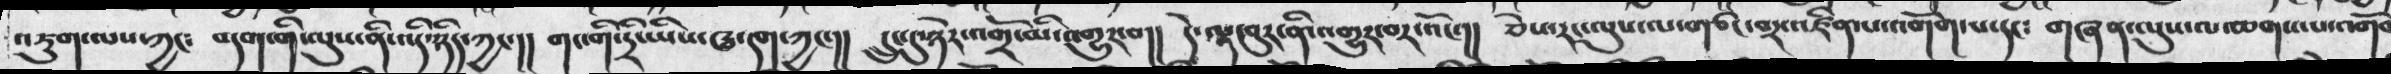འཇུག་ལས་ཀྱང༴  བདག་གི་ལུས་ནི་འདི་ཉིད་ཀྱང་།། གང་གི་དྲི་ཡིས་ཝ་དག་ཀྱང་།།  དྲུང་དུ་ཉེར་འགྲོ་མི་འགྱུར་བ།།  དེ་ལྟ་བུར་ནི་འགྱུར་བར་འོང་།།  ཅེས་རང་ལུས་ལ་གཙང་བར་འཛིན་པ་འགོག་པ་དང༴  གཞན་ལུས་ལ་ཆགས་པ་འགོ
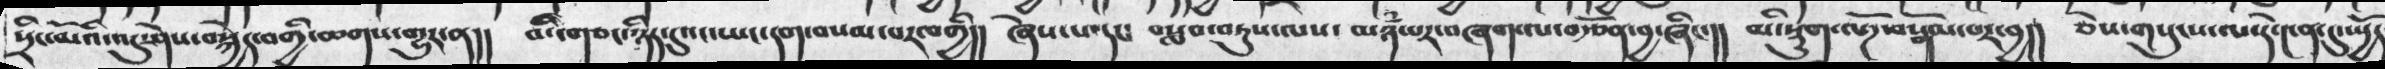སྲིང་མོའི་འདུ་ཤེས་བསྐྱེད་བགྱི་ཆགས་གྱུར་ན།།  མི་གཙང་ཉིད་དུའང་ཡང་དག་བསམ་པར་བགྱི།།  ཞེས་པ་དང༴  བསླབ་བཏུས་ལས་  མཉཾ་པར་བཞག་པ་བརྩོན་བྱ་ཞིང་།།  མི་སྡུག་ལོཌ་བསྒོམ་པར་བྱ།།  ཅེས་གསུངས་ལ་རེ་༤ན་དུ་སྤྱོད
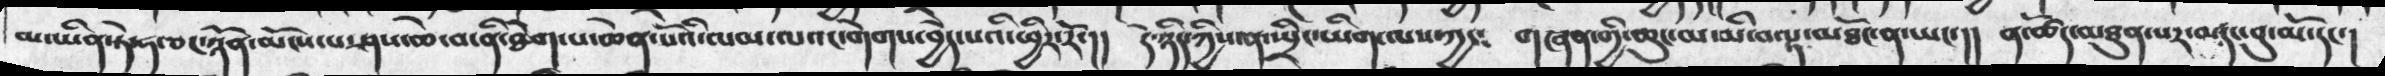མ་ཡིན་ཏེ་ཧ་ཅང་ཉོན་མོངས་པ་ཤས་ཆེ་བ་ནི་ཐེག་པ་ཆེན་པོའི་ལམ་ལའང་གེགས་བྱེད་པའི་ཕྱིར་རོ་།། དེ་ཉིད་ཀྱིས་ན་སྤྲིང་ཡིག་ལས་ཀྱང༴ གཞན་གྱི་ཆུང་མ་མི་བལྟ་མཐོང་ན་ཡང་།།  ན་ཚོད་མཐུན་པར་མ་དང་བུ་མོ་དང་
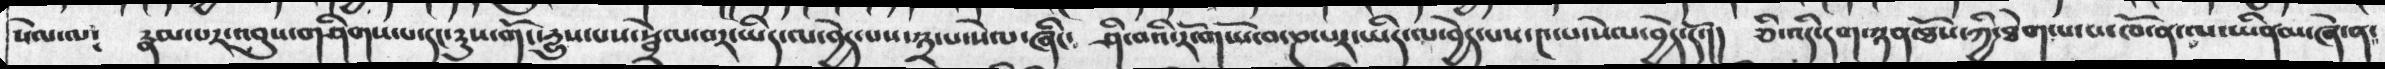སེལ་ལ༴   རྣམ་པར་འབུས་གཤིགས་པ་དང་རུས་གོང་དྱུས་པས་སྦྲེལ་བར་ཡིད་ལ་བྱེད་པས་༣་པ་སེལ་ཞིང༴   ཤི་བའི་རོ་གཡོ་བ་ཎ་པར་ཡིད་ལ་བྱེད་པས་༤་པ་སེལ་བྱེད་དོ་།།  ཅི་འདི་དག་ཉན་ཐོས་ཀྱི་ཐེག་པ་བ་ཁོ་ན་ལ་ཡིནམ་ཞེ་ན་
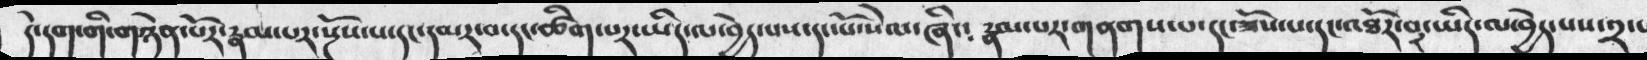དེ་དག་གི་གཉེན་པོར་རྣམ་པར་སྔོས་པ་དང་དམར་བ་དང་ཚིག་པར་ཡིད་ལ་བྱེད་པས་དང་པོ་སེལ་ཞིང༴  རྣམ་པར་གནགས་པ་དང་ཟོས་པ་དང་འཐོར་བར་ཡིད་ལ་བྱེད་པས་༢་
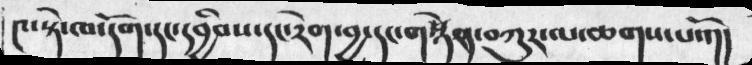༩་སྟེ་ཁ་དོག་དང་དབྱིབས་དང་རེག་བྱ་དང་གསྙེན་བཀུར་ལ་ཆགས་པའོ།།
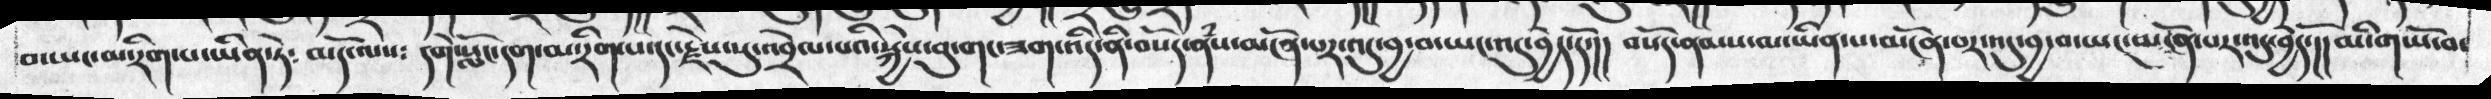བ་ཡང་མ་རིག་པ་ཡིན་ཏེ༴  མདོ་ལས༴  དགེ་སློང་དག་མ་རིག་པ་དང་རྗེས་སུ་འབྲེལ་པའི་སྐྱེས་བུ་གང་ཟག་འདི་ནི་བསོད་ནཾས་མངོན་པར་འདུ་བྱ་བ་ཡང་འདུ་བྱེད་དོ་།། བསོད་ནམས་མ་ཡིན་པ་མངོན་པར་འདུ་བྱ་བ་ཡང་མངོན་པར་འདུ་བྱེད་ོ།།  མི་གཡོ་བ་
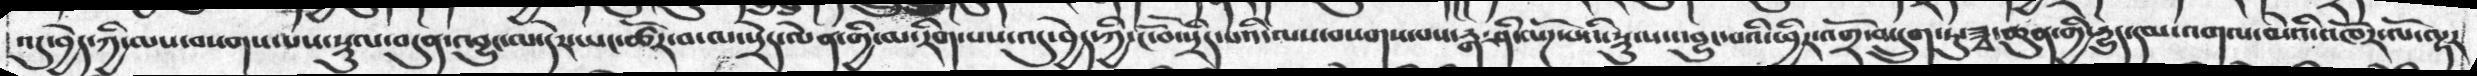འདུ་བྱེད་ཀྱི་ལས་བསགས་པས་སྡུལ་བདུན་འབྱུང་ལ་དེར་ཡང་ཚོར་བ་ལ་སྲེད་ལེན་གྱི་མ་རིག་པས་འདུ་བྱེད་ཀྱི་ངོ་བོ་སྲིད་པའི་ལས་བསགས་པས་རྒ་ཤི་སོཌ་པའི་སྡུལ་འབྱུང་པའི་ཕྱིར་འགྲོ་བ་དྲུག་ཏུ་ཟྭ་ཆུན་གྱི་དྱུད་དམ་འགལ་མེའི་འཁོར་ལོ་ལྟར
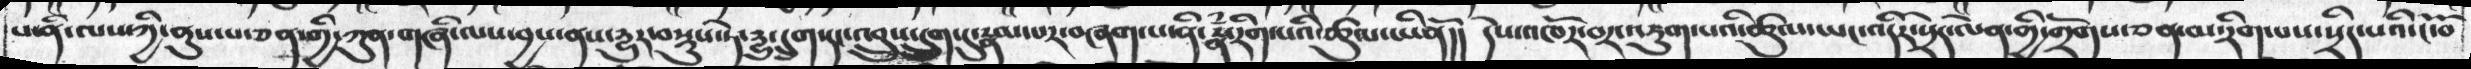པ་ནི་ལས་ཀྱི་ནུས་པ་ཅན་གྱི་ཀུན་གཞི་ལས་བྱས་ནས་དྱུར་བསྡུས་ཏེ་དྱུ་དྲུག་དང་འབྲུས་དྲུག་དུ་རྣམ་པར་བཞག་པ་ནི་རྣཾ་རིག་པའི་ཚུལ་ཡིནོ།།  དེས་འཁོར་བར་འཇུག་པའི་ཚུལ་ཡང་འདིར་སྲེད་ལེན་གྱི་གྲོགས་ཅན་མ་རིག་པས་སྲིད་པའི་ངོ་བོ
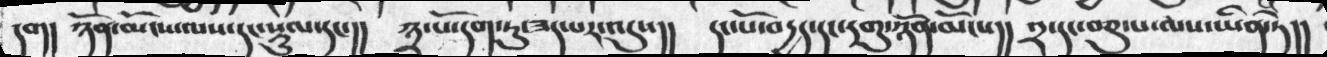དག། ཉོན་མོངས་ལས་དང་སྡུལ་དང་།།  ༣་པོ་དག་ཏུ་ཟད་པར་འདུས།།  དང་པོ་བདྱད་དང་དགུ་ཉོན་མོངས།། ༢་དང་བཅུ་པ་ལས་ཡིན་ཏེ།།
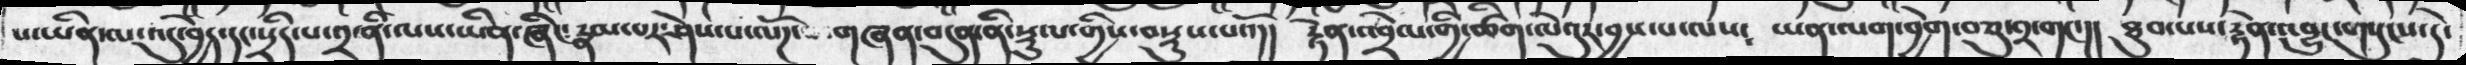པ་ཡིན་ལ་འདུ་བྱེད་དང་སྲིད་པ་༢་ནི་ལས་ཡིན་ཞིང་རྣམ་པར་ཤེས་པ་ལོཌ་  གཞན་བདུན་ནི་སྡུལ་གྱིས་བསྡུས་པའོ།།  རྟེན་འབྲེལ་གྱི་ཚིག་ལེའུར་བྱས་པ་ལས༴   ཡན་ལག་བྱེག་བཅུ་༢་གང་།།  ཐུབ་པས་རྟེན་འབྱུང་གསུངས་དེ་
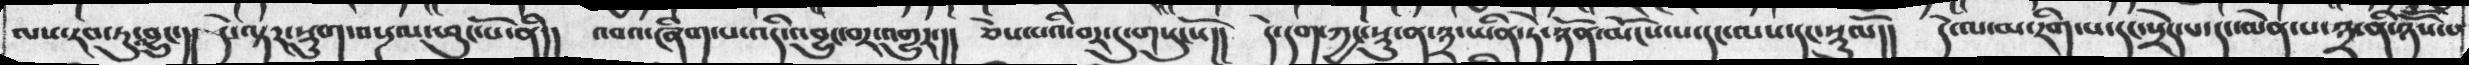ལས་རབ་ཏུ་འབྱུང་།།  དེ་ལྟར་སྡུག་བསྔལ་ཕུང་པོ་ནི།།  འབའ་ཞིག་པ་འདི་འབྱུང་བར་འགྱུར་།།  ཅེས་པའི་བར་དུ་གསུངསོ།།   དེ་དག་ཀྱང་སྡུ་ན་༣་ཡིན་ཏེ་ཉོན་མོངས་པ་དང་ལས་དང་སྡུལོ།།  དེ་ལ་མ་རིག་པ་དང་སྲེད་པ་དང་ལེན་པ་༣་ནི་ཉོོཾས་པ
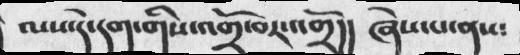ལས་དེ་དག་གིས་འགྲོ་བར་འགྲོ།། ཞེས་པ་ནས༴
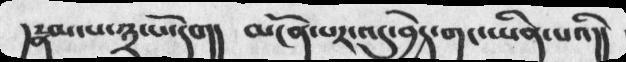།རྣམ་པ་༣་པོ་དག།  མངོན་པར་འདུ་བྱེད་གང་ཡིན་པའི།།
